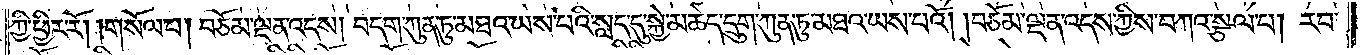ཀྱི་ཕྱིར་རོ། །གསོལ་པ། བཅོམ་ལྡན་འདས། བདག་ཀུན་ཏུ་མཐའ་ཡས་པའི་སླད་དུ་སྐྱེ་མཆེད་དྲུག་ཀུན་ཏུ་མཐའ་ཡས་པའོ། །བཅོམ་ལྡན་འདས་ཀྱིས་བཀའ་སྩལ་པ། རབ་
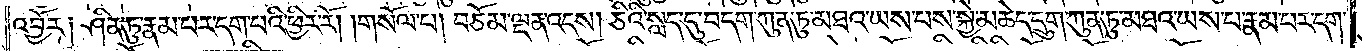འབྱོར༑ ཤིན་ཏུ་རྣམ་པར་དག་པའི་ཕྱིར་རོ། །གསོལ་པ། བཅོམ་ལྡན་འདས། ཅིའི་སླད་དུ་བདག་ཀུན་ཏུ་མཐའ་ཡས་པས་སྐྱེ་མཆེད་དྲུག་ཀུན་ཏུ་མཐའ་ཡས་པ་རྣམ་པར་དག་
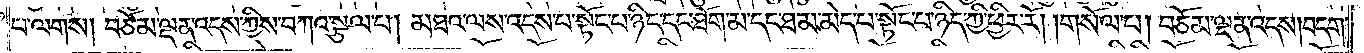པ་ལགས། བཅོམ་ལྡན་འདས་ཀྱིས་བཀའ་སྩལ་པ། མཐའ་ལས་འདས་པ་སྟོང་པ་ཉིད་དང་ཐོག་མ་དང་ཐ་མ་མེད་པ་སྟོང་པ་ཉིད་ཀྱི་ཕྱིར་རོ། །གསོལ་པ། བཅོམ་ལྡན་འདས། བདག་
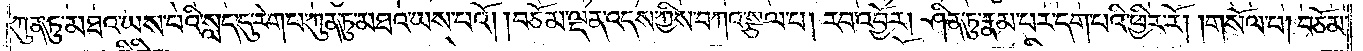ཀུན་ཏུ་མཐའ་ཡས་པའི་སླད་དུ་རེག་པ་ཀུན་ཏུ་མཐའ་ཡས་པའོ། །བཅོམ་ལྡན་འདས་ཀྱིས་བཀའ་སྩལ་པ། རབ་འབྱོར། ཤིན་ཏུ་རྣམ་པར་དག་པའི་ཕྱིར་རོ། །གསོལ་པ། བཅོམ་
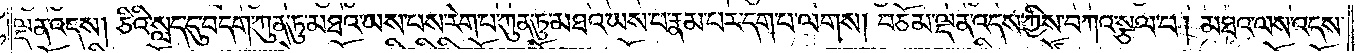ལྡན་འདས། ཅིའི་སླད་དུ་བདག་ཀུན་ཏུ་མཐའ་ཡས་པས་རེག་པ་ཀུན་ཏུ་མཐའ་ཡས་པ་རྣམ་པར་དག་པ་ལགས། བཅོམ་ལྡན་འདས་ཀྱིས་བཀའ་སྩལ་པ། མཐའ་ལས་འདས་
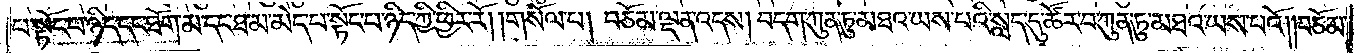པ་སྟོང་པ་ཉིད་དང་ཐོག་མ་དང་ཐ་མ་མེད་པ་སྟོང་པ་ཉིད་ཀྱི་ཕྱིར་རོ། །གསོལ་པ། བཅོམ་ལྡན་འདས། བདག་ཀུན་ཏུ་མཐའ་ཡས་པའི་སླད་དུ་ཚོར་བ་ཀུན་ཏུ་མཐའ་ཡས་པའོ། །བཅོམ་
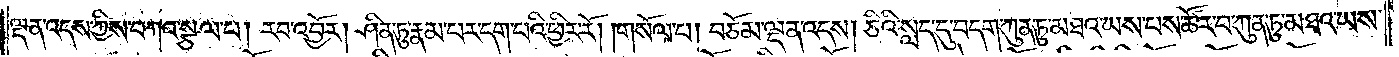ལྡན་འདས་ཀྱིས་བཀའ་སྩལ་པ། རབ་འབྱོར། ཤིན་ཏུ་རྣམ་པར་དག་པའི་ཕྱིར་རོ། །གསོལ་པ། བཅོམ་ལྡན་འདས། ཅིའི་སླད་དུ་བདག་ཀུན་ཏུ་མཐའ་ཡས་པས་ཚོར་བ་ཀུན་ཏུ་མཐའ་ཡས་
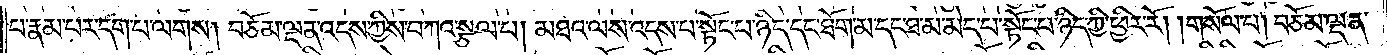པ་རྣམ་པར་དག་པ་ལགས། བཅོམ་ལྡན་འདས་ཀྱིས་བཀའ་སྩལ་པ། མཐའ་ལས་འདས་པ་སྟོང་པ་ཉིད་དང་ཐོག་མ་དང་ཐ་མ་མེད་པ་སྟོང་པ་ཉིད་ཀྱི་ཕྱིར་རོ། །གསོལ་པ། བཅོམ་ལྡན་
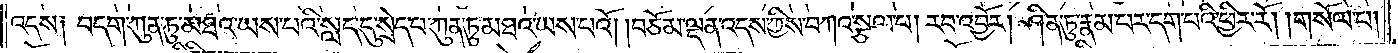འདས༑ བདག་ཀུན་ཏུ་མཐའ་ཡས་པའི་སླད་དུ་སྲེད་པ་ཀུན་ཏུ་མཐའ་ཡས་པའོ། །བཅོམ་ལྡན་འདས་ཀྱིས་བཀའ་སྩལ་པ། རབ་འབྱོར། ཤིན་ཏུ་རྣམ་པར་དག་པའི་ཕྱིར་རོ། །གསོལ་པ།
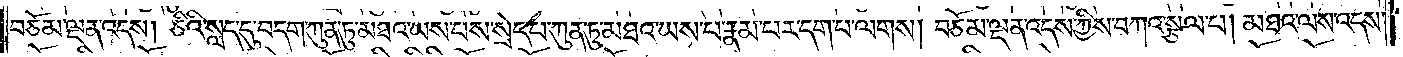བཅོམ་ལྡན་འདས། ཅིའི་སླད་དུ་བདག་ཀུན་ཏུ་མཐའ་ཡས་པས་སྲེད་པ་ཀུན་ཏུ་མཐའ་ཡས་པ་རྣམ་པར་དག་པ་ལགས། བཅོམ་ལྡན་འདས་ཀྱིས་བཀའ་སྩལ་པ། མཐའ་ལས་འདས་
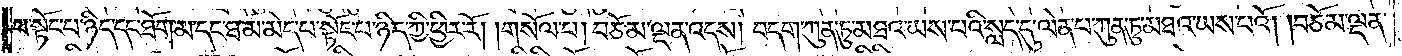པ་སྟོང་པ་ཉིད་དང་ཐོག་མ་དང་ཐ་མ་མེད་པ་སྟོང་པ་ཉིད་ཀྱི་ཕྱིར་རོ། །གསོལ་པ། བཅོམ་ལྡན་འདས། བདག་ཀུན་ཏུ་མཐའ་ཡས་པའི་སླད་དུ་ལེན་པ་ཀུན་ཏུ་མཐའ་ཡས་པའོ། །བཅོམ་ལྡན་
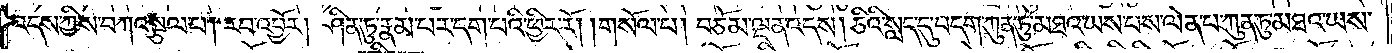འདས་ཀྱིས་བཀའ་སྩལ་པ། རབ་འབྱོར། ཤིན་ཏུ་རྣམ་པར་དག་པའི་ཕྱིར་རོ། །གསོལ་པ། བཅོམ་ལྡན་འདས། ཅིའི་སླད་དུ་བདག་ཀུན་ཏུ་མཐའ་ཡས་པས་ལེན་པ་ཀུན་ཏུ་མཐའ་ཡས་
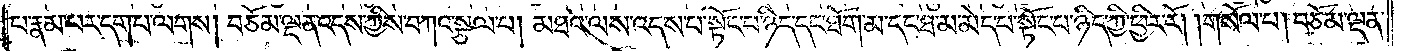པ་རྣམ་པར་དག་པ་ལགས། བཅོམ་ལྡན་འདས་ཀྱིས་བཀའ་སྩལ་པ། མཐའ་ལས་འདས་པ་སྟོང་པ་ཉིད་དང་ཐོག་མ་དང་ཐ་མ་མེད་པ་སྟོང་པ་ཉིད་ཀྱི་ཕྱིར་རོ། །གསོལ་པ། བཅོམ་ལྡན་
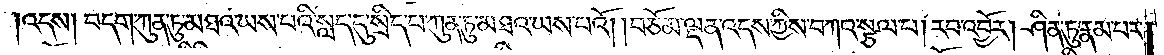འདས། བདག་ཀུན་ཏུ་མཐའ་ཡས་པའི་སླད་དུ་སྲིད་པ་ཀུན་ཏུ་མཐའ་ཡས་པའོ། །བཅོམ་ལྡན་འདས་ཀྱིས་བཀའ་སྩལ་པ། རབ་འབྱོར། ཤིན་ཏུ་རྣམ་པར་
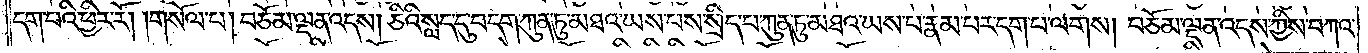དག་པའི་ཕྱིར་རོ། །གསོལ་པ། བཅོམ་ལྡན་འདས། ཅིའི་སླད་དུ་བདག་ཀུན་ཏུ་མཐའ་ཡས་པས་སྲིད་པ་ཀུན་ཏུ་མཐའ་ཡས་པ་རྣམ་པར་དག་པ་ལགས། བཅོམ་ལྡན་འདས་ཀྱིས་བཀའ་
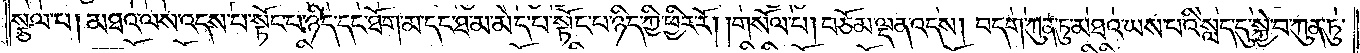སྩལ་པ༑ མཐའ་ལས་འདས་པ་སྟོང་པ་ཉིད་དང་ཐོག་མ་དང་ཐ་མ་མེད་པ་སྟོང་པ་ཉིད་ཀྱི་ཕྱིར་རོ། །གསོལ་པ། བཅོམ་ལྡན་འདས། བདག་ཀུན་ཏུ་མཐའ་ཡས་པའི་སླད་དུ་སྐྱེ་བ་ཀུན་ཏུ་
